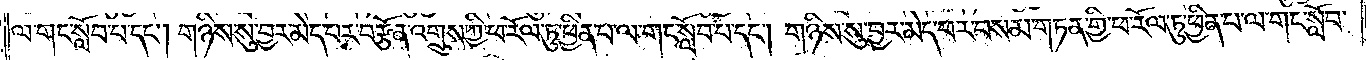ལ་གང་སློབ་པ་དང༌། གཉིས་སུ་བྱར་མེད་པར་བརྩོན་འགྲུས་ཀྱི་ཕ་རོལ་ཏུ་ཕྱིན་པ་ལ་གང་སློབ་པ་དང༌། གཉིས་སུ་བྱར་མེད་པར་བསམ་གཏན་གྱི་ཕ་རོལ་ཏུ་ཕྱིན་པ་ལ་གང་སློབ་
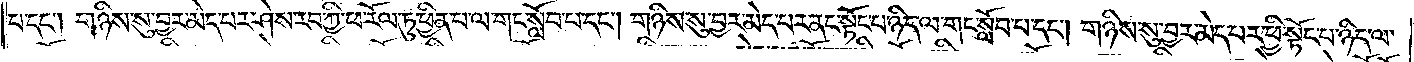པ་དང༌། གཉིས་སུ་བྱར་མེད་པར་ཤེས་རབ་ཀྱི་ཕ་རོལ་ཏུ་ཕྱིན་པ་ལ་གང་སློབ་པ་དང༌། གཉིས་སུ་བྱར་མེད་པར་ནང་སྟོང་པ་ཉིད་ལ་གང་སློབ་པ་དང༌། གཉིས་སུ་བྱར་མེད་པར་ཕྱི་སྟོང་པ་ཉིད་ལ་
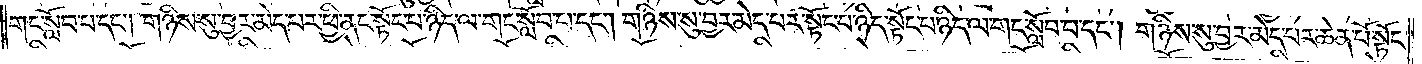གང་སློབ་པ་དང༌། གཉིས་སུ་བྱར་མེད་པར་ཕྱི་ནང་སྟོང་པ་ཉིད་ལ་གང་སློབ་པ་དང༌། གཉིས་སུ་བྱར་མེད་པར་སྟོང་པ་ཉིད་སྟོང་པ་ཉིད་ལ་གང་སློབ་པ་དང༌། གཉིས་སུ་བྱར་མེད་པར་ཆེན་པོ་སྟོང་
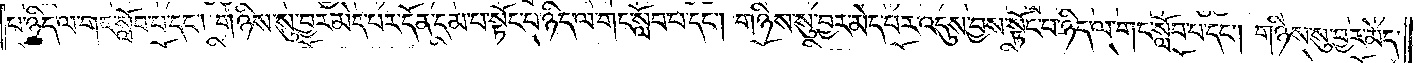པ་ཉིད་ལ་གང་སློབ་པ་དང༌། གཉིས་སུ་བྱར་མེད་པར་དོན་དམ་པ་སྟོང་པ་ཉིད་ལ་གང་སློབ་པ་དང༌། གཉིས་སུ་བྱར་མེད་པར་འདུས་བྱས་སྟོང་པ་ཉིད་ལ་གང་སློབ་པ་དང༌། གཉིས་སུ་བྱར་མེད་
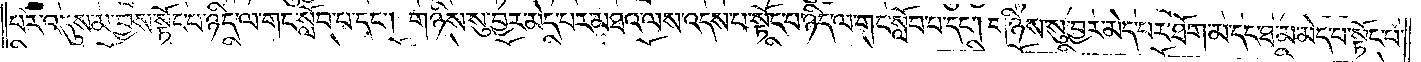པར་འདུས་མ་བྱས་སྟོང་པ་ཉིད་ལ་གང་སློབ་པ་དང༌། གཉིས་སུ་བྱར་མེད་པར་མཐའ་ལས་འདས་པ་སྟོང་པ་ཉིད་ལ་གང་སློབ་པ་དང༌། གཉིས་སུ་བྱར་མེད་པར་ཐོག་མ་དང་ཐ་མ་མེད་པ་སྟོང་པ་
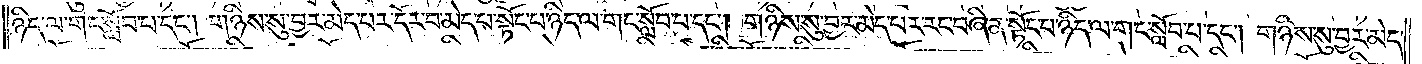ཉིད་ལ་གང་སློབ་པ་དང༌། གཉིས་སུ་བྱར་མེད་པར་དོར་བ་མེད་པ་སྟོང་པ་ཉིད་ལ་གང་སློབ་པ་དང༌། གཉིས་སུ་བྱར་མེད་པར་རང་བཞིན་སྟོང་པ་ཉིད་ལ་གང་སློབ་པ་དང༌། གཉིས་སུ་བྱར་མེད་
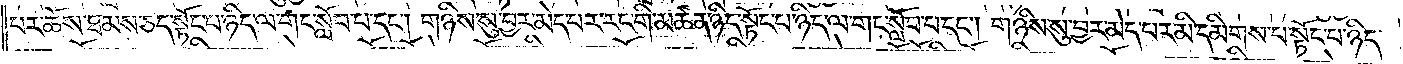པར་ཆོས་ཐམས་ཅད་སྟོང་པ་ཉིད་ལ་གང་སློབ་པ་དང༌། གཉིས་སུ་བྱར་མེད་པར་རང་གི་མཚན་ཉིད་སྟོང་པ་ཉིད་ལ་གང་སློབ་པ་དང༌། གཉིས་སུ་བྱར་མེད་པར་མི་དམིགས་པ་སྟོང་པ་ཉིད་
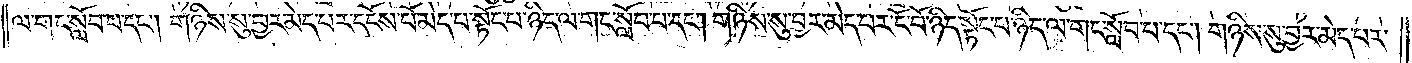ལ་གང་སློབ་པ་དང༌། གཉིས་སུ་བྱར་མེད་པར་དངོས་པོ་མེད་པ་སྟོང་པ་ཉིད་ལ་གང་སློབ་པ་དང༌། གཉིས་སུ་བྱར་མེད་པར་ངོ་བོ་ཉིད་སྟོང་པ་ཉིད་ལ་གང་སློབ་པ་དང༌། གཉིས་སུ་བྱར་མེད་པར་
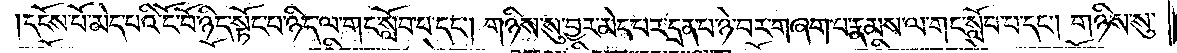དངོས་པོ་མེད་པའི་ངོ་བོ་ཉིད་སྟོང་པ་ཉིད་ལ་གང་སློབ་པ་དང༌། གཉིས་སུ་བྱར་མེད་པར་དྲན་པ་ཉེ་བར་བཞག་པ་རྣམས་ལ་གང་སློབ་པ་དང༌། གཉིས་སུ་
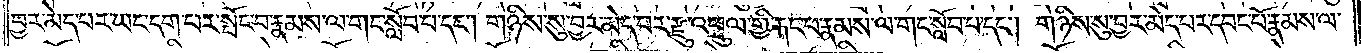བྱར་མེད་པར་ཡང་དག་པར་སྤོང་བ་རྣམས་ལ་གང་སློབ་པ་དང༌། གཉིས་སུ་བྱར་མེད་པར་རྫུ་འཕྲུལ་གྱི་རྐང་པ་རྣམས་ལ་གང་སློབ་པ་དང༌། གཉིས་སུ་བྱར་མེད་པར་དབང་པོ་རྣམས་ལ་
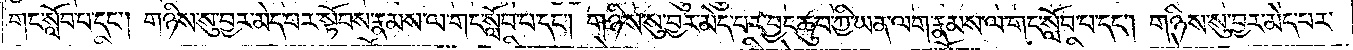གང་སློབ་པ་དང༌། གཉིས་སུ་བྱར་མེད་པར་སྟོབས་རྣམས་ལ་གང་སློབ་པ་དང༌། གཉིས་སུ་བྱར་མེད་པར་བྱང་ཆུབ་ཀྱི་ཡན་ལག་རྣམས་ལ་གང་སློབ་པ་དང༌། གཉིས་སུ་བྱར་མེད་པར་
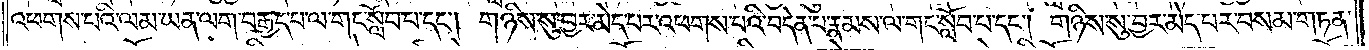འཕགས་པའི་ལམ་ཡན་ལག་བརྒྱད་པ་ལ་གང་སློབ་པ་དང༌། གཉིས་སུ་བྱར་མེད་པར་འཕགས་པའི་བདེན་པ་རྣམས་ལ་གང་སློབ་པ་དང༌། གཉིས་སུ་བྱར་མེད་པར་བསམ་གཏན་
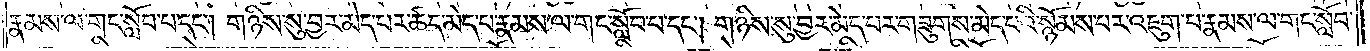རྣམས་ལ་གང་སློབ་པ་དང༌། གཉིས་སུ་བྱར་མེད་པར་ཚད་མེད་པ་རྣམས་ལ་གང་སློབ་པ་དང༌། གཉིས་སུ་བྱར་མེད་པར་གཟུགས་མེད་པའི་སྙོམས་པར་འཇུག་པ་རྣམས་ལ་གང་སློབ་
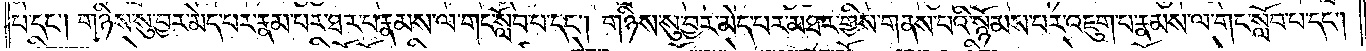པ་དང༌། གཉིས་སུ་བྱར་མེད་པར་རྣམ་པར་ཐར་པ་རྣམས་ལ་གང་སློབ་པ་དང༌། གཉིས་སུ་བྱར་མེད་པར་མཐར་གྱིས་གནས་པའི་སྙོམས་པར་འཇུག་པ་རྣམས་ལ་གང་སློབ་པ་དང༌།
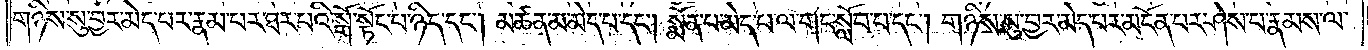གཉིས་སུ་བྱར་མེད་པར་རྣམ་པར་ཐར་པའི་སྒོ་སྟོང་པ་ཉིད་དང༌། མཚན་མ་མེད་པ་དང༌། སྨོན་པ་མེད་པ་ལ་གང་སློབ་པ་དང༌། གཉིས་སུ་བྱར་མེད་པར་མངོན་པར་ཤེས་པ་རྣམས་ལ་
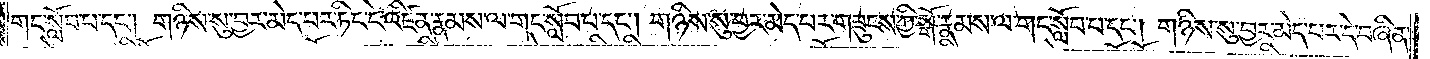གང་སློབ་པ་དང༌། གཉིས་སུ་བྱར་མེད་པར་ཏིང་ངེ་འཛིན་རྣམས་ལ་གང་སློབ་པ་དང༌། གཉིས་སུ་བྱར་མེད་པར་གཟུངས་ཀྱི་སྒོ་རྣམས་ལ་གང་སློབ་པ་དང༌། གཉིས་སུ་བྱར་མེད་པར་དེ་བཞིན་
